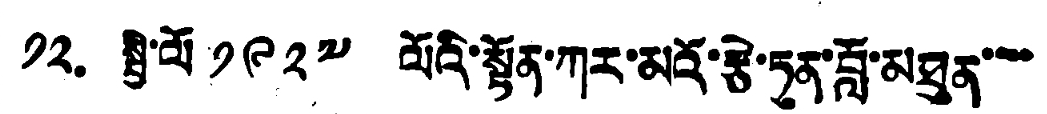༡༢. སྤྱི་ལོ་ ༡༩༢༧ ལོའི་སྟོན་ཀར་མའོ་རྩེ་ཏུན་བློ་མཐུན་་་་
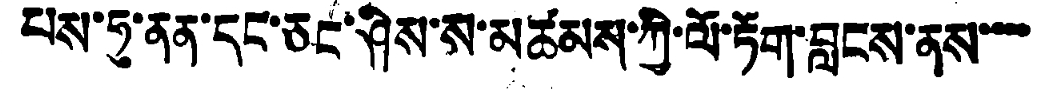པས་ཧུ་ནན་དང་ཅང་ཤིས་ས་མཚམས་ཀྱི་ལོ་ཏོག་བླངས་ནས་་་་་
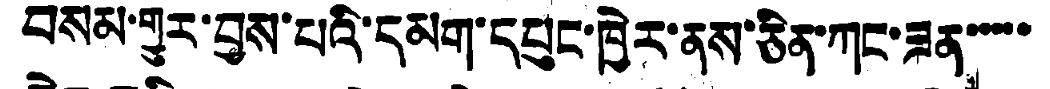བསམ་གྱུར་བྱས་པའི་དམག་དཔུང་ཁྱེར་ནས་ཅིན་ཀང་ཟན་་་་
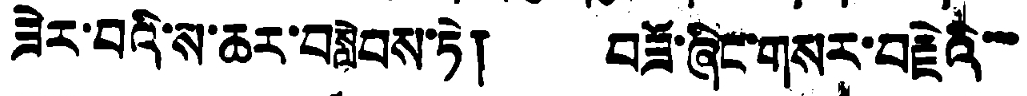ཟེར་བའི་ས་ཆར་བསླེབས་ཏེ། བཟོ་ཞིང་གསར་བརྗེའི་་་
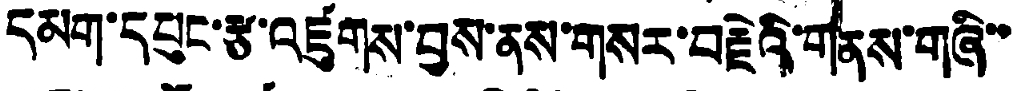དམག་དཔུང་རྩ་འཛུགས་བྱས་ནས་གསར་བརྗེའི་གནས་གཞི་་
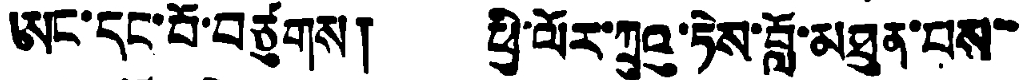ཨང་དང་པོ་བཙུགས། ཕྱི་ལོར་ཀྲུའུ་ཏེས་བློ་མཐུན་པས་་
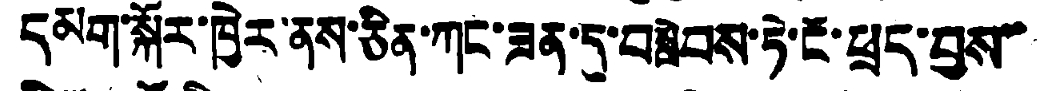དམག་སྐོར་ཁྱེར་ནས་ཅིན་ཀང་ཟན་དུ་བསླེབས་ཏེ་ངོ་ཕྲད་བྱས་་
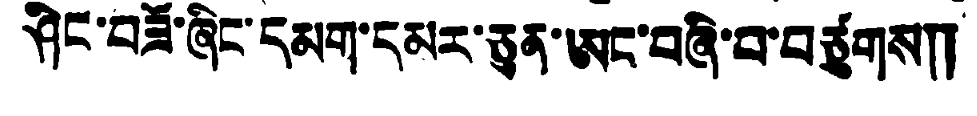ཤིང་བཟོ་ཞིང་དམག་དམར་ཅུན་ཨང་བཞི་བ་བཙུགས༎
